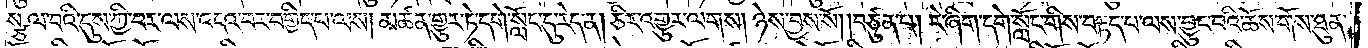སྩལ་བའི་དུས་ཀྱི་བར་ལས་འདའ་བར་བགྱིད་པ་ལས། མཚན་གྱུར་ཏེ་དགེ་སློང་དུ་རེད་ན། ཅིར་འགྱུར་ལགས། ཉེས་བྱས་སོ། །བཙུན་པ། རེ་ཞིག་དགེ་སློང་གིས་བརྟད་པ་ལས་བྱུང་བའི་ཆོས་གོས་ཐུན་
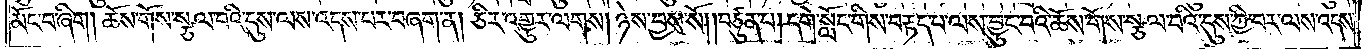མོང་བ་ཞིག། ཆོས་གོས་སྩལ་པའི་དུས་ལས་འདས་པར་བཞག་ན། ཅིར་འགྱུར་ལགས། ཉེས་བྱས་སོ། །བཙུན་པ། དགེ་སློང་གིས་བརྟད་པ་ལས་བྱུང་བའི་ཆོས་གོས་སྩལ་པའི་དུས་ཀྱི་བར་ལས་འདས་
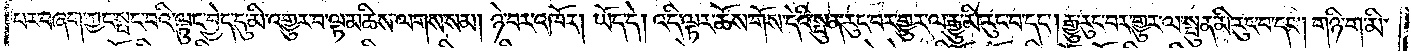པར་བཞག་ཀྱང་སྤང་བའི་ལྟུང་བྱེད་དུ་མི་འགྱུར་བ་ལྟ་མཆིས་ལགས་སམ། ཉེ་བར་འཁོར། ཡོད་དེ། འདི་ལྟར་ཆོས་གོས་དེའི་སྤུན་རུང་བར་གྱུར་ལ་རྒྱུ་མི་རུང་བ་དང༌། རྒྱུ་རུང་བར་གྱུར་ལ་སྤུན་མི་རུང་བ་དང༌། གཉི་ག་མི་
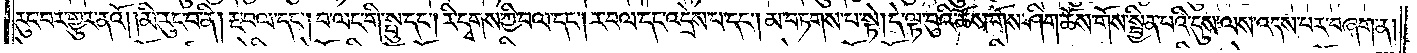རུང་བར་གྱུར་ནའོ། །མི་རུང་བ་ནི། རྔ་བལ་དང༌། བ་ལང་གི་སྤུ་དང༌། རི་དྭགས་ཀྱི་བལ་དང༌། ར་བལ་དང་འདྲེས་པ་དང༌། མ་བཏགས་པ་སྟེ། དེ་ལྟ་བུའི་ཆོས་གོས་ཤིག་ཆོས་གོས་སྦྱིན་པའི་དུས་ལས་འདས་པར་བཞག་ན་
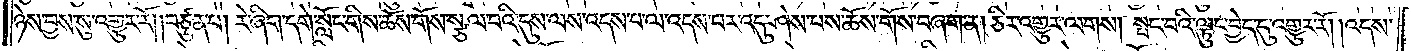ཉེས་བྱས་སུ་འགྱུར་རོ། །བཙུན་པ། རེ་ཞིག་དགེ་སློང་གིས་ཆོས་གོས་སྩལ་པའི་དུས་ལས་འདས་པ་ལ་འདས་པར་འདུ་ཤེས་པས་ཆོས་གོས་བཞག་ན། ཅིར་འགྱུར་ལགས། སྤང་བའི་ལྟུང་བྱེད་དུ་འགྱུར་རོ། །འདས་
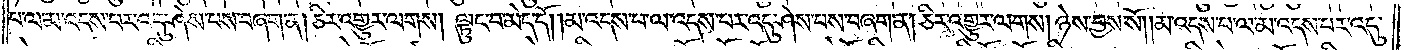པ་ལ་མ་འདས་པར་འདུ་ཤེས་པས་བཞག་ན། ཅིར་འགྱུར་ལགས། ལྟུང་བ་མེད་དོ། །མ་འདས་པ་ལ་འདས་པར་འདུ་ཤེས་པས་བཞག་ན། ཅིར་འགྱུར་ལགས། ཉེས་བྱས་སོ། །མ་འདས་པ་ལ་མ་འདས་པར་འདུ་
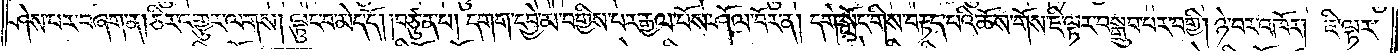ཤེས་པར་བཞག་ན། ཅིར་འགྱུར་ལགས། ལྟུང་བ་མེད་དོ། །བཙུན་པ། དགག་དབྱེ་མ་བགྱིས་པར་རྒྱལ་པོས་ཤོལ་བོར་ན། དགེ་སློང་གིས་བརྟད་པའི་ཆོས་གོས་ཇི་ལྟར་བསྒྲུབ་པར་བགྱི། ཉེ་བར་འཁོར། ཇི་ལྟར་
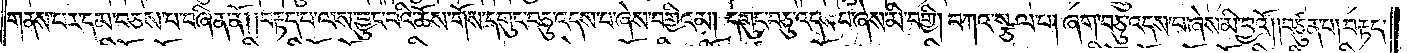གནས་པར་དམ་བཅས་པ་བཞིན་ནོ། །བརྟད་པ་ལས་བྱུང་བའི་ཆོས་གོས་དགུང་བཅུ་འདས་པ་ཞེས་བགྱིའམ། དགུང་བཅུ་འདས་པ་ཞེས་མི་བགྱི། བཀའ་སྩལ་པ། ཞག་བཅུ་འདས་པ་ཞེས་མི་བྱའོ། །བཙུན་པ། བརྟད་
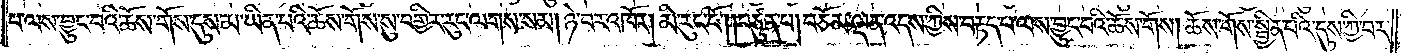པ་ལས་བྱུང་བའི་ཆོས་གོས་དུས་མ་ཡིན་པའི་ཆོས་གོས་སུ་བགྱིར་རུང་ལགས་སམ། ཉེ་བར་འཁོར། མི་རུང་ངོ༌། །བཙུན་པ། བཅོམ་ལྡན་འདས་ཀྱིས་བརྟད་པ་ལས་བྱུང་བའི་ཆོས་གོས། ཆོས་གོས་སྦྱིན་པའི་དུས་ཀྱི་བར་
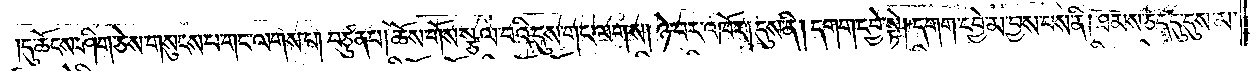།དུ་ཆོངས་ཤིག་ཅེས་གསུངས་པ་གང་ལགས་པ། བཙུན་པ། ཆོས་གོས་སྩལ་བའི་དུས་གང་ལགས། ཉེ་བར་འཁོར། དུས་ནི། དགག་དབྱེ་སྟེ། དགག་དབྱེ་མ་བྱས་པས་ནི། ཐམས་ཅད་དུ་དུས་མ་
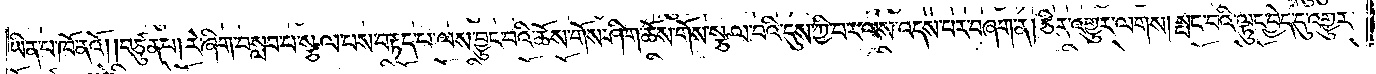ཡིན་པ་ཁོ་ནའོ། །བཙུན་པ། རེ་ཞིག་བསླབ་པ་སྩལ་པས་བརྟད་པ་ལས་བྱུང་བའི་ཆོས་གོས་ཤིག་ཆོས་གོས་སྩལ་པའི་དུས་ཀྱི་བར་ལས་འདས་པར་བཞག་ན། ཅིར་འགྱུར་ལགས། སྤང་བའི་ལྟུང་བྱེད་དུ་འགྱུར་
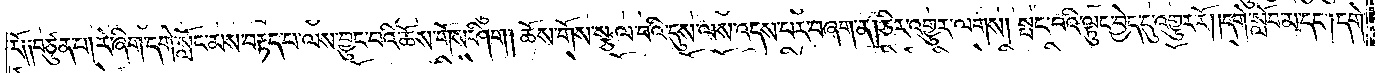རོ༑ ༑བཙུན་པ། རེ་ཞིག་དགེ་སློང་མས་བརྟད་པ་ལས་བྱུང་བའི་ཆོས་གོས་ཤིག། ཆོས་གོས་སྩལ་པའི་དུས་ལས་འདས་པར་བཞག་ན། ཅིར་འགྱུར་ལགས། སྤང་བའི་ལྟུང་བྱེད་དུ་འགྱུར་རོ། །དགེ་སློབ་མ་དང༌། དགེ་
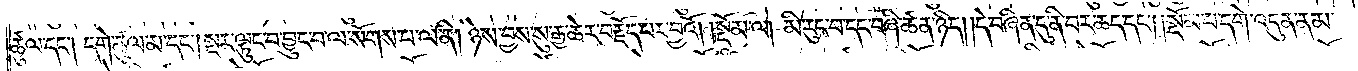ཚུལ་དང༌། དགེ་ཚུལ་མ་དང༌། སྔར་ལྟུང་བ་བྱུང་བ་ལ་སོགས་པ་ལ་ནི། ཉེས་བྱས་སུ་རྒྱ་ཆེར་བརྗོད་པར་བྱའོ།    །སྡོམ་ལ། མི་རུང་བ་དང་བཞི་ཚན་ཉིད། །དེ་བཞིན་དུ་ནི་བར་ཆད་དང༌། །སྡོམ་པ་དགེ་འདུན་ནམ་
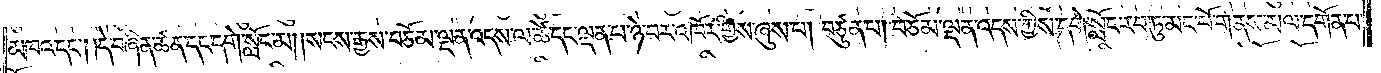མཁའ་དང༌། །དེ་བཞིན་ཚན་དང་དགེ་སློང་མ། །སངས་རྒྱས་བཅོམ་ལྡན་འདས་ལ་ཚེ་དང་ལྡན་པ་ཉེ་བར་འཁོར་གྱིས་ཞུས་པ། བཙུན་པ། བཅོམ་ལྡན་འདས་ཀྱིས་དགེ་སློང་རབ་ཏུ་མང་པོ་གནས་མལ་དགོན་པ་
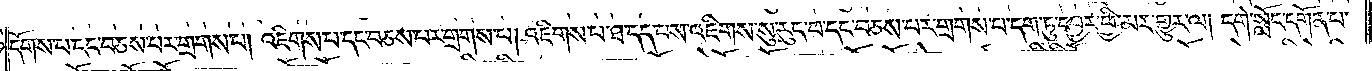དོགས་པ་དང་བཅས་པར་གྲགས་པ། འཇིགས་པ་དང་བཅས་པར་གྲགས་པ། འཇིགས་པ་ཐ་དད་པས་འཇིགས་སུ་རུང་བ་དང་བཅས་པར་གྲགས་པ་དག་ཏུ་དབྱར་ཕྱི་མར་གྱུར་ལ། དགེ་སློང་དགོན་པ་
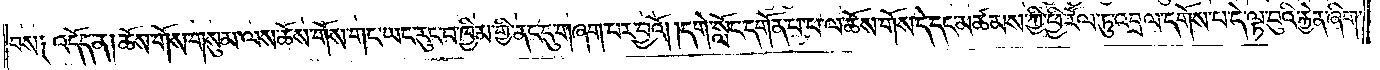བས༑ འདོད་ན། ཆོས་གོས་གསུམ་ལས་ཆོས་གོས་གང་ཡང་རུང་བ་ཁྱིམ་གྱི་ནང་དུ་གཞག་པར་བྱའོ། །དགེ་སློང་དགོན་པ་པ་ལ་ཆོས་གོས་དེ་དང་མཚམས་ཀྱི་ཕྱི་རོལ་ཏུ་འབྲལ་དགོས་པ་དེ་ལྟ་བུའི་རྐྱེན་ཞིག་
